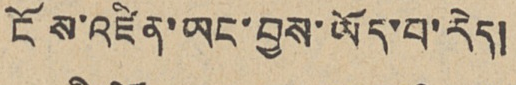ངོས་འཛིན་ཡང་བྱས་ཡོད་པ་རེད།
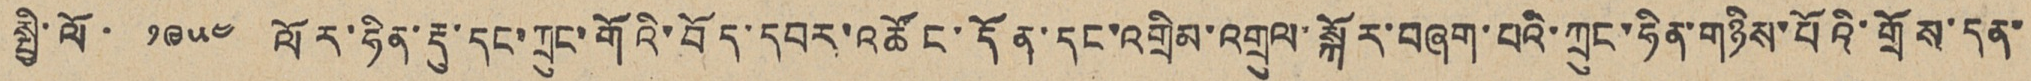སྤྱི་ལོ་ ༡༩༥༤ ལོར་ཧིན་རྡུ་དང་ཀྲུང་གོའི་བོད་དབར་འཚོང་དོན་དང་འགྲིམ་འགྲུལ་སྐོར་བཞག་པའི་ཀྲུང་ཧིན་གཉིས་པོའི་གྲོས་དན་
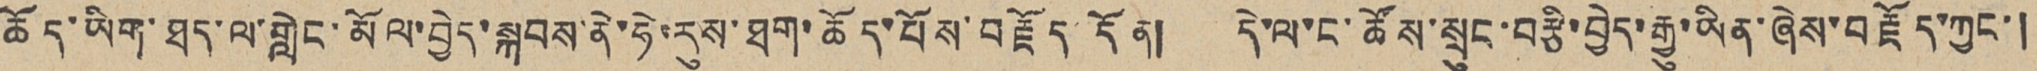ཆོད་ཡིག་ཐད་ལ་གླེང་མོལ་བྱེད་སྐབས་ནེ་ཧེ་རུས་ཐག་ཆོད་པོས་བརྗོད་དོན། དེ་ལ་ང་ཚོས་སྲུང་བརྩི་བྱེད་རྒྱུ་ཡིན་ཞེས་བརྗོད་ཀྱང་།
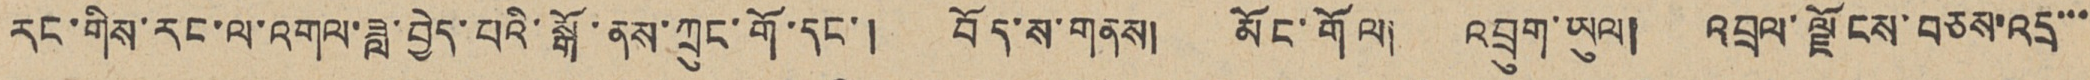རང་གིས་རང་ལ་འགལ་ཟླ་བྱེད་པའི་སྒོ་ནས་ཀྲུང་གོ་དང་། བོད་ས་གནས། མོང་གོལ། འབྲུག་ཡུལ། འབྲལ་ལྗོངས་བཅས་འདྲ་་་
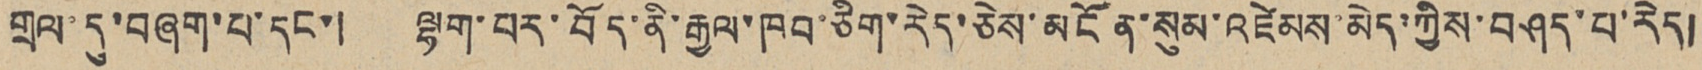གྲལ་དུ་བཞག་པ་དང་། ལྷག་པར་བོད་ནི་རྒྱལ་ཁབ་ཅིག་རེད་ཅེས་མངོན་སུམ་འཛེམས་མེད་ཀྱིས་བཤད་པ་རེད།
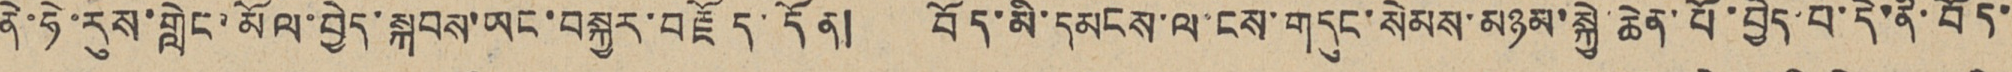ནེ་ཧེ་རུས་གླེང་མོལ་བྱེད་སྐབས་ཡང་བསྐྱར་བརྗོད་དོན། བོད་མི་དམངས་ལ་ངས་གདུང་སེམས་མཉམ་སྐྱེ་ཆེན་པོ་བྱེད་པ་དེ་ནི་བོད་
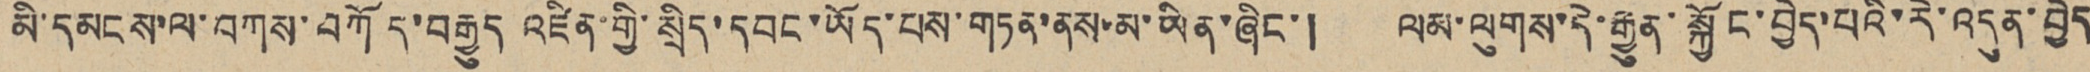མི་དམངས་ལ་བཀས་བཀོད་བརྒྱུད འཛིན་གྱི་སྲིད་དབང་ཡོད་པས་གཏན་ནས་མ་ཡིན་ཞིང་། ལམ་ལུགས་དེ་རྒྱུན་སྐྱོང་བྱེད་པའི་རེ་འདུན་བྱེད
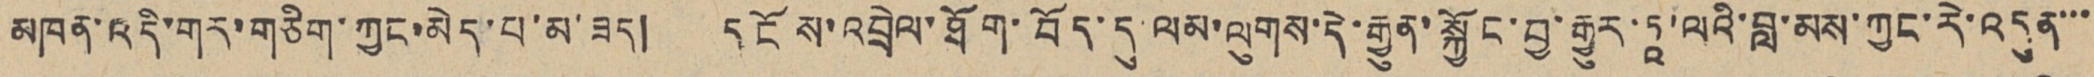མཁན་འདི་གར་གཅིག་ཀྱང་མེད་པ་མ་ཟད། དངོས་འབྲེལ་ཐོག་བོད་དུ་ལམ་ལུགས་དེ་གྱུན་སྐྱོང་བྱ་རྒྱུར་ཏཱ་ལའི་བླ་མས་ཀྱང་རེ་འདུན་་་
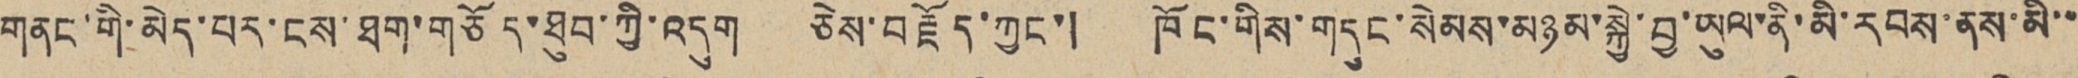གནང་གི་མེད་པར་ངས་ཐག་གཅོད་ཐུབ་ཀྱི་འདུག ཅེས་བརྗོད་ཀྱང་། ཁོང་གིས་གདུང་སེམས་མཉམ་སྐྱེ་བྱ་ཡུལ་ནི་མི་རབས་ནས་མི་་
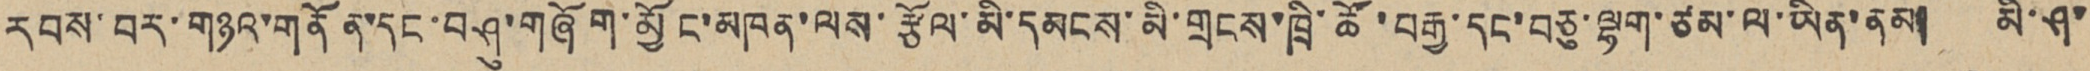རབས་བར་གཉའ་གནོན་དང་བཤུ་གཞོག་མྱོང་མཁན་ལས་རྩོལ་མི་དམངས་མི་གྲངས་ཁྲི་ཚོ་བརྒྱ་དང་བཅུ་ལྷག་ཙམ་ལ་ཡིན་ནམ། མི་ཤ་
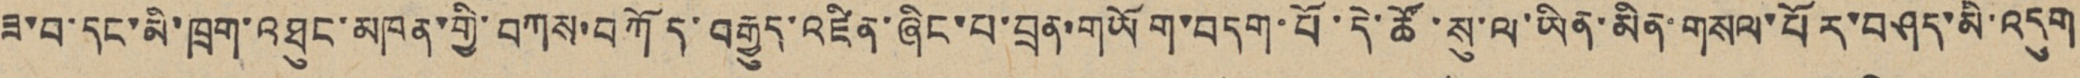ཟ་བ་དང་མི་ཁྲག་འཐུང་མཁན་གྱི་བཀས་བཀོད་བརྒྱུད་འཛིན་ཞིང་པ་བྲན་གཡོག་བདག་པོ་དེ་ཚོ་སུ་ལ་ཡིན་མིན་གསལ་པོར་བཤད་མི་འདུག
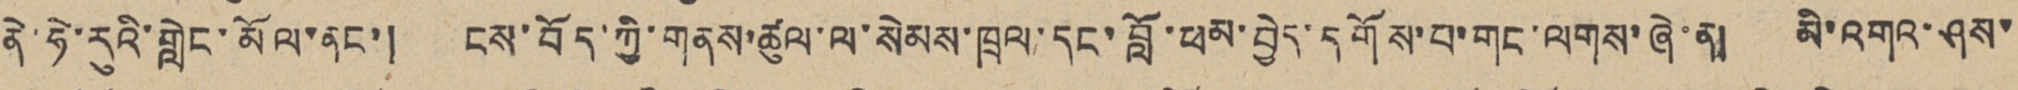ནེ་ཧེ་རུའི་གླིང་མོལ་ནང་། ངས་བོད་ཀྱི་གནས་ཚུལ་ལ་སེམས་ཁྲལ་དང་བློ་ཕམ་བྱེད་དགོས་པ་གང་ལགས་ཞེ་ན། མི་འགའ་ཤས་
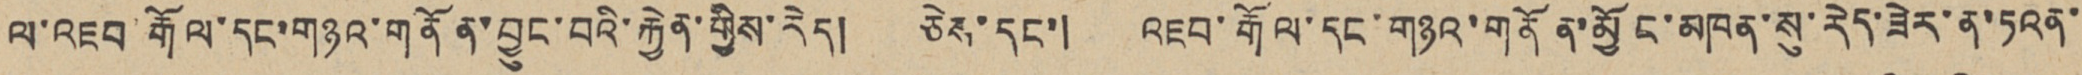ལ་འཇབ་རྒོལ་དང་གཉའ་གནོན་བྱུང་བའི་རྐྱེན་གྱིས་རེད། ཅེས་དང་། འཇབ་རྒོལ་དང་གཉའ་གནོན་མྱོང་མཁན་སུ་རེད་ཟེར་ན་ཏའན་
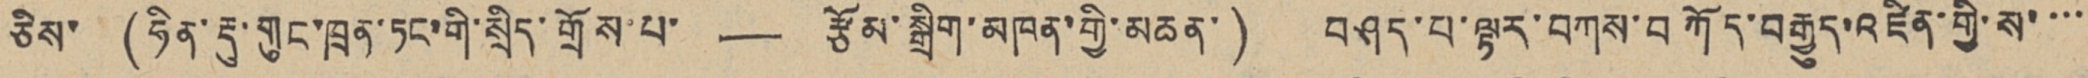ཅིས་ (ཧིན་རྡུ་གུང་ཁྲན་ཏང་གི་སྲིད་གྲོས་པ་ — རྩོམ་སྒྲིག་མཁན་གྱི་མཆན་) བཤད་པ་ལྟར་བཀས་བཀོད་བརྒྱུད་འཛིན་གྱི་ས་་་་
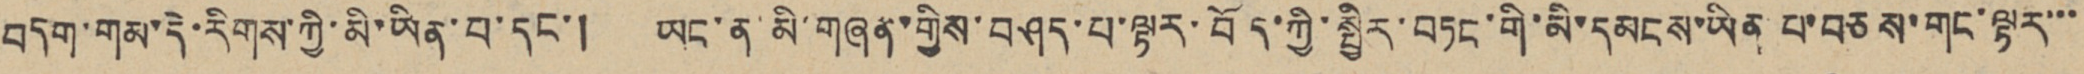བདག་གམ་དེ་རིགས་ཀྱི་མི་ཡིན་པ་དང་། ཡང་ན་མི་གཞན་གྱིས་བཤད་པ་ལྟར་བོད་ཀྱི་སྤྱིར་བཏང་གི་མི་དམངས་ཡིན པ་བཅས་གང་ལྟར་་་
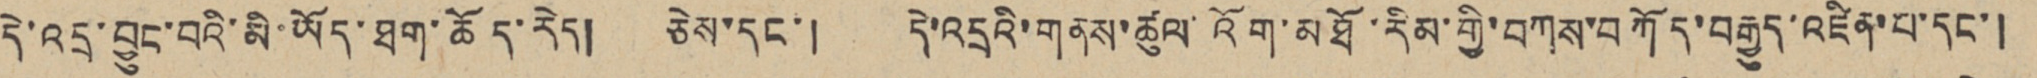དེ་འདྲ་བྱུང་བའི་མི་ཡོད་ཐག་ཆོད་རེད། ཅེས་དང་། དེ་འདྲའི་གནས་ཚུལ་འོག་མཐོ་རིམ་གྱི་བཀས་བཀོད་བརྒྱུད་འཛིན་པ་དང་།
